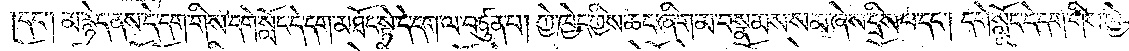དང༌། མ་རྙེད་ནས་དེ་དག་གིས་དགེ་སློང་དེ་དག་མཐོང་སྟེ་དེ་དག་ལ་བཙུན་པ། ཀྱེ་ཁྱེད་ཀྱིས་ཆང་ཞིག་མ་བསྣམས་སམ་ཞེས་དྲིས་པ་དང༌། དགེ་སློང་དེ་དག་གིས་ཁྱེར་
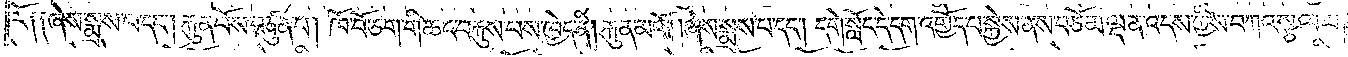རོ༑ ༑ཞེས་སྨྲས་པ་དང༌། རྐུན་པོས་བཙུན་པ། ཁོ་བོ་ཅག་གི་ཆང་བརྐུས་པས་ཁྱེད་ནི། རྐུན་མའོ། །ཞེས་སྨྲས་པ་དང༌། དགེ་སློང་དེ་དག་འགྱོད་པ་སྐྱེས་ནས་བཅོམ་ལྡན་འདས་ཀྱིས་བཀའ་སྩལ་པ།
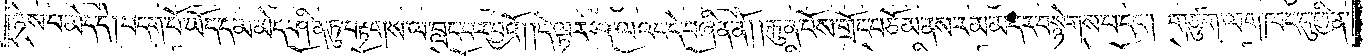ཉེས་པ་མེད་དེ། བདག་པོ་ཡོད་དམ་མེད་ཤིན་ཏུ་བརྟགས་ལ་བླང་བར་བྱའོ། །དེ་ལྟར་ཤ་ལའང་དེ་བཞིན་ནོ། །རྐུན་པོས་གྲོང་བཅོམ་ནས་རམ་མདར་བསྙེགས་པ་དང༌། གཙུག་ལག་ཁང་དུ་ཕྱིན་
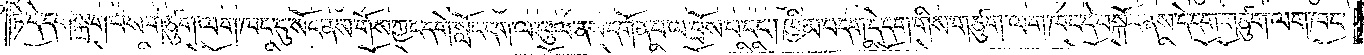ཏེ་དེ་དག་སྐྲག་པས་གཙུག་ལག་ཁང་དུ་སོང་ནས་གོས་ཀྱང་དགེ་སློང་དག་ལ་ཕུལ་ནས་དགོན་པ་ལ་བྲོས་པ་དང༌། ཁྱིམ་བདག་དེ་དག་གིས་གཙུག་ལག་ཁང་དེ་བསྐོར་ནས་དེ་དག་གཙུག་ལག་ཁང་
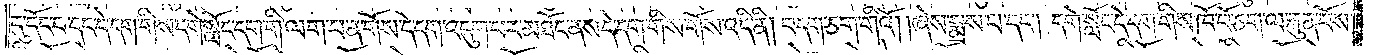དུ་དོང་བ་དང་དེ་དག་གིས་དགེ་སློང་དག་གི་ལག་པ་ན་གོས་དེ་དག་འདུག་པར་མཐོང་ནས་དེ་དག་གིས་གོས་འདི་ནི། བདག་ཅག་གིའོ། །ཞེས་སྨྲས་པ་དང༌། དགེ་སློང་དེ་དག་གིས་ཁོ་བོ་ཅག་ལ་རྐུན་པོས་
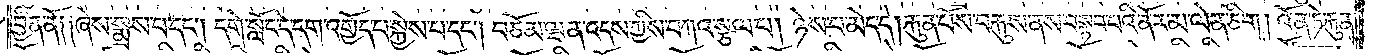བྱིན་ནོ༑ ༑ཞེས་སྨྲས་པ་དང༌། དགེ་སློང་དེ་དག་འགྱོད་པ་སྐྱེས་པ་དང༌། བཅོམ་ལྡན་འདས་ཀྱིས་བཀའ་སྩལ་པ། ཉེས་པ་མེད་དེ། རྐུན་པོས་བརྐུས་ནས་བསྟབ་པའི་ནོར་མ་ལེན་ཅིག །འོན་ཏེ་རྐུན་
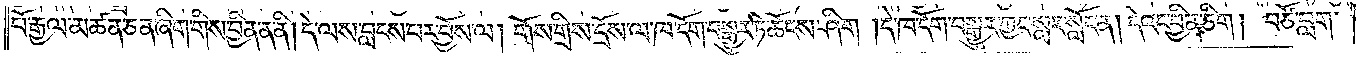པོ་རྒྱལ་མཚན་ཅན་ཞིག་གིས་བྱིན་ན་ནི། དེ་ལས་བླངས་པར་བྱོས་ལ། གོས་གྲིས་དྲོས་ལ་ཁ་དོག་བསྒྱུར་ཏེ་ཆོངས་ཤིག །དེ་ཁ་དོག་བསྒྱུར་ཀྱང་སླར་སློང་ན། དེའང་བྱིན་ཅིག །བཙོ་བླག་
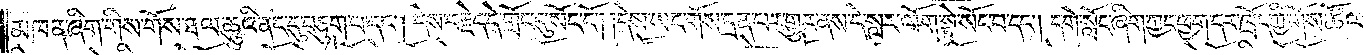མཁན་ཞིག་གིས་གོས་ཐལ་ཆུའི་ནང་དུ་བཅུག་པ་དང༌། དེས་བརྗེད་དེ་གྲོང་དུ་སོང་ངོ༌། །དེས་ཡང་གོས་དྲན་པར་གྱུར་ནས་དེ་སླར་ལོག་སྟེ་སོང་བ་དང༌། དགེ་སློང་ཞིག་ཀྱང་ཕྱག་དར་ཁྲོད་ཀྱི་གོས་ཚོལ་
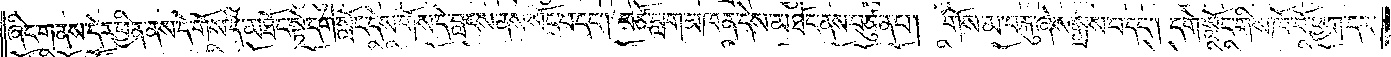ཞིང་གནས་དེར་ཕྱིན་ནས་དེ་གོས་དེ་མཐོང་སྟེ་དགེ་སློང་དེས་གོས་དེ་བླངས་ནས་སོང་བ་དང༌། བཙོ་བླག་མཁན་དེས་མཐོང་ནས་བཙུན་པ། གོས་མ་བརྐུ་ཞེས་སྨྲས་པ་དང༌། དགེ་སློང་གིས་ཁོ་བོ་ཕྱག་དར་
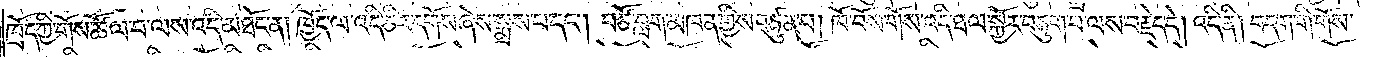ཁྲོད་ཀྱི་གོས་ཚོལ་བ་ལས་འདི་མཐོང་ན། ཁྱོད་ལ་འདི་ཅིར་དགོས་ཞེས་སྨྲས་པ་དང༌། བཙོ་བླག་མཁན་གྱིས་བཙུན་པ། ཁོ་བོས་གོས་འདི་ཐལ་སྐྱོར་བཅུག་པ་ལས་བརྗེད་དེ། འདི་ནི། བདག་གི་གོས་
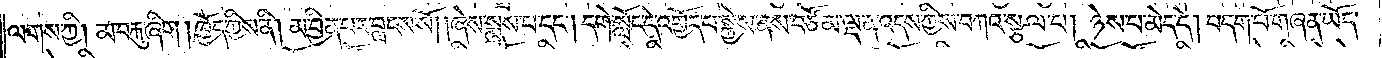ལགས་ཀྱི། མ་བརྐུ་ཞིག །ཁྱོད་ཀྱིས་ནི། མ་བྱིན་པར་བླངས་སོ། །ཞེས་སྨྲས་པ་དང༌། དགེ་སློང་དེ་འགྱོད་པ་སྐྱེས་ནས་བཅོམ་ལྡན་འདས་ཀྱིས་བཀའ་སྩལ་པ། ཉེས་པ་མེད་དེ། བདག་པོ་གཞན་ཡོད་
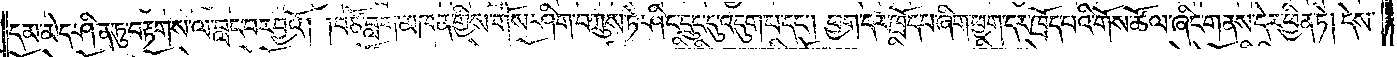དམ་མེད་ཤིན་ཏུ་བརྟགས་ལ་བླང་བར་བྱའོ། །བཙོ་བླག་མཁན་གྱིས་གོས་ཤིག་བཀྲུས་ཏེ་ཤིང་དྲུང་དུ་འདུག་པ་དང༌། ཕྱག་དར་ཁྲོད་པ་ཞིག་ཕྱག་དར་ཁྲོད་པའི་གོས་ཚོལ་ཞིང་གནས་དེར་ཕྱིན་ཏེ། དེས་
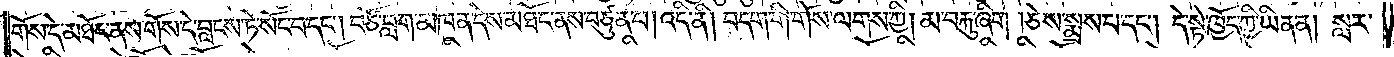གོས་དེ་མཐོང་ནས་གོས་དེ་བླངས་ཏེ་སོང་བ་དང༌། བཙོ་བླག་མཁན་དེས་མཐོང་ནས་བཙུན་པ། འདི་ནི། བདག་གིས་གོས་ལགས་ཀྱི། མ་བརྐུ་ཞིག །ཅེས་སྨྲས་པ་དང༌། དེ་སྟེ་ཁྱོད་ཀྱི་ཡིན་ན། སླར་
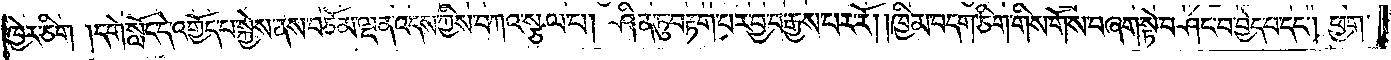ཁྱེར་ཅིག །དགེ་སློང་དེ་འགྱོད་པ་སྐྱེས་ནས་བཅོམ་ལྡན་འདས་ཀྱིས་བཀའ་སྩལ་པ། ཤིན་ཏུ་བརྟག་པར་བྱ་བ་རྒྱས་པར་རོ། །ཁྱིམ་བདག་ཅིག་གིས་གོས་བཞག་སྟེ་བཤང་བ་བྱེད་པ་དང༌། ཕྱག་
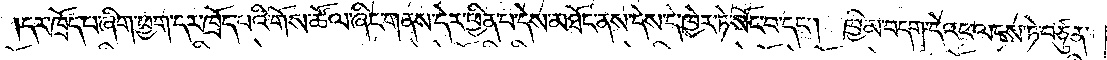དར་ཁྲོད་པ་ཞིག་ཕྱག་དར་ཁྲོད་པའི་གོས་ཚོལ་ཞིང་གནས་དེར་ཕྱིན་པ་དེས་མཐོང་ནས་དེས་དེ་ཁྱེར་ཏེ་སོང་བ་དང༌། ཁྱིམ་བདག་དེའང་ལངས་ཏེ་བཙུན་
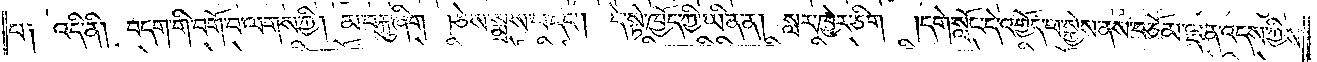པ༑ འདི་ནི། བདག་གི་བགོ་བ་ལགས་ཀྱི། མ་བརྐུ་ཞིག །ཅེས་སྨྲས་པ་དང༌། དེ་སྟེ་ཁྱོད་ཀྱི་ཡིན་ན། སླར་ཁྱེར་ཅིག །དགེ་སློང་དེ་འགྱོད་པ་སྐྱེས་ནས་བཅོམ་ལྡན་འདས་ཀྱིས་
